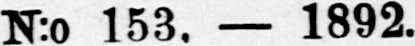N:o 153. — 1892.
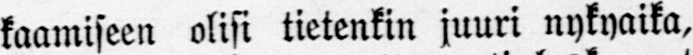kaamiseen olisi tietenkin juuri nykyaika,
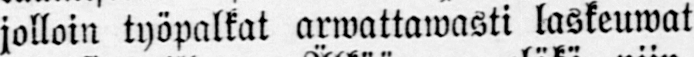jolloin työpalkat arwattawasti laskeuwat
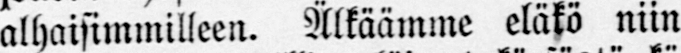alhaisimmilleen. Älkäämme eläkö niin-
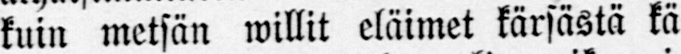kuin metsän willit eläimet kärsästä kä-
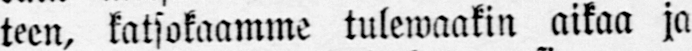teen, katsokaamme tulewaakin aikaa ja
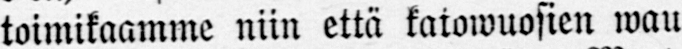toimikaamme niin että katowuosien wau-
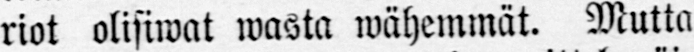riot olisiwat wasta wähemmät. Mutta
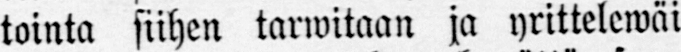tointa siihen tarwitaan ja yrittelewäi-
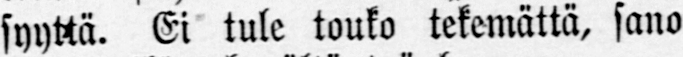syyttä. Ei tule touko tekemättä, sano-
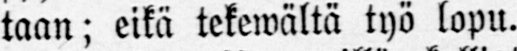taan; eikä tekewältä työ lopu.
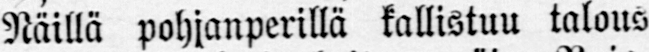Näillä pohjanperillä kallistuu talous
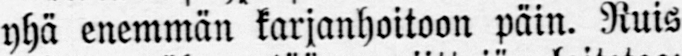yhä enemmän karjanhoitoon päin. Ruis-
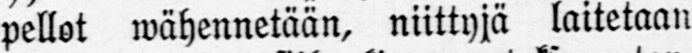pellot wähennetään, niittyjä laitetaan
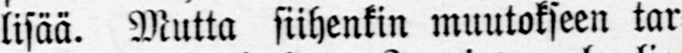lisää. Mutta siihenkin muutokseen tar-
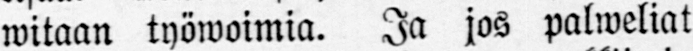witaan työwoimia. Ja jos palweliat
